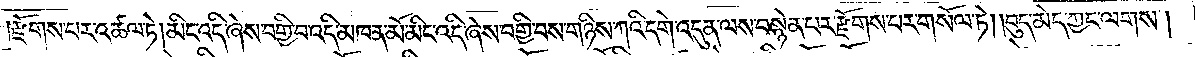རྫོགས་པར་འཚལ་ཏེ། མིང་འདི་ཞེས་བགྱི་བ་འདི་མཁན་མོ་མིང་འདི་ཞེས་བགྱི་བས་གཉིས་ཀའི་དགེ་འདུན་ལས་བསྙེན་པར་རྫོགས་པར་གསོལ་ཏེ། །བུད་མེད་ཀྱང་ལགས། །
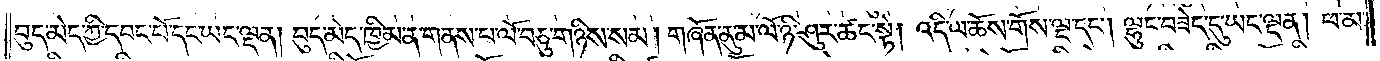བུད་མེད་ཀྱི་དབང་པོ་དང་ཡང་ལྡན། བུད་མེད་ཁྱིམ་ན་གནས་པ་ལོ་བཅུ་གཉིས་སམ། གཞོན་ནུ་མ་ལོ་ཉི་ཤུར་ཚང་སྟེ། འདི་ལ་ཆོས་གོས་ལྔ་དང༌། ལྷུང་བཟེད་དུ་ཡང་ལྡན། ཕ་མ་
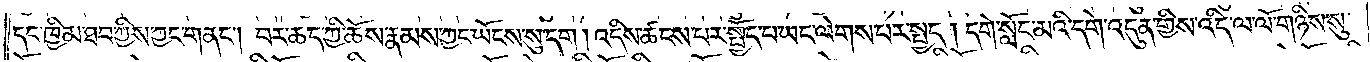དང་ཁྱིམ་ཐབ་ཀྱིས་ཀྱང་གནང༌། བར་ཆད་ཀྱི་ཆོས་རྣམས་ཀྱང་ཡོངས་སུ་དག །འདིས་ཚངས་པར་སྤྱོད་པ་ཡང་ལེགས་པར་སྤྱད། དགེ་སློང་མའི་དགེ་འདུན་གྱིས་འདི་ལ་ལོ་གཉིས་སུ་
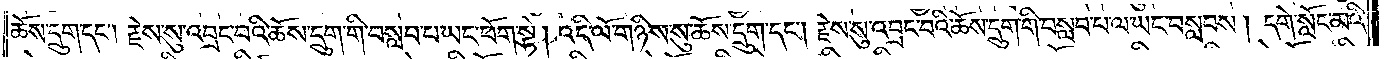ཆོས་དྲུག་དང༌། རྗེས་སུ་འབྲང་བའི་ཆོས་དྲུག་གི་བསླབ་པ་ཡང་ཕོག་སྟེ། འདི་ལོ་གཉིས་སུ་ཆོས་དྲུག་དང༌། རྗེས་སུ་འབྲང་བའི་ཆོས་དྲུག་གི་བསླབ་པ་ལ་ཡང་བསླབས། དགེ་སློང་མའི་
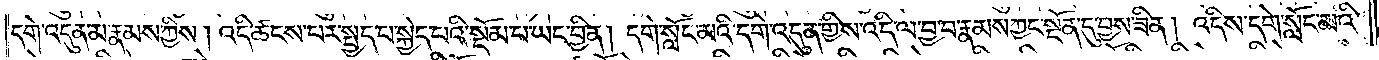དགེ་འདུན་མ་རྣམས་ཀྱིས། འདི་ཚངས་པར་སྤྱད་པ་སྐྱེད་པའི་སྡོམ་པ་ཡང་བྱིན། དགེ་སློང་མའི་དགེ་འདུན་གྱིས་འདི་ལ་བྱ་བ་རྣམས་ཀྱང་སྔོན་དུ་བྱས་ཟིན། འདིས་དགེ་སློང་མའི་
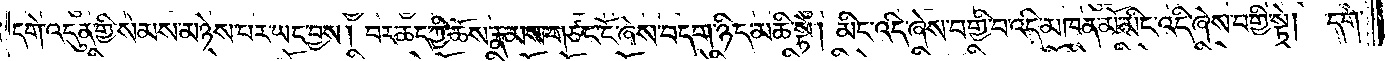དགེ་འདུན་གྱི་སེམས་མཉེས་པར་ཡང་བྱས། བར་ཆད་ཀྱི་ཆོས་རྣམས་གཙང་ངོ་ཞེས་བདག་ཉིད་མཆི་སྟེ། མིང་འདི་ཞེས་བགྱི་བ་འདི་མཁན་མོ་མིང་འདི་ཞེས་བགྱི་སྟེ། དགེ་
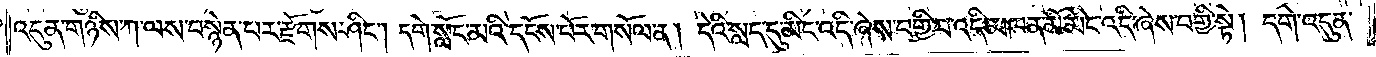འདུན་གཉིས་ཀ་ལས་བསྙེན་པར་རྫོགས་ཤིང༌། དགེ་སློང་མའི་དངོས་པོར་གསོལ་ན། དེའི་སླད་དུ་མིང་འདི་ཞེས་བགྱི་བ་འདི་མཁན་མོ་མིང་འདི་ཞེས་བགྱི་སྟེ། དགེ་འདུན་
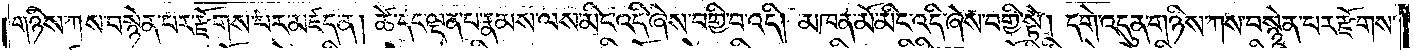གཉིས་ཀས་བསྙེན་པར་རྫོགས་པར་མཛད་ན། ཚེ་དང་ལྡན་པ་རྣམས་ལས་མིང་འདི་ཞེས་བགྱི་བ་འདི། མཁན་མོ་མིང་འདི་ཞེས་བགྱི་སྟེ། དགེ་འདུན་གཉིས་ཀས་བསྙེན་པར་རྫོགས་
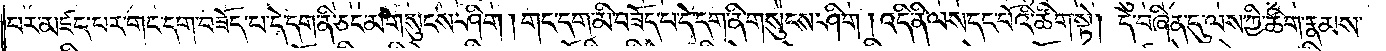པར་མཛད་པར་གང་དག་བཟོད་པ་དེ་དག་ནི་ཅང་མ་གསུངས་ཤིག །གང་དག་མི་བཟོད་པ་དེ་དག་ནི་གསུངས་ཤིག །འདི་ནི་ལས་དང་པོའི་ཚིག་སྟེ། དེ་བཞིན་དུ་ལས་ཀྱི་ཚིག་རྣམས་
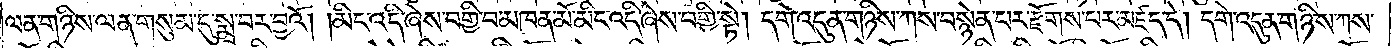ལན་གཉིས་ལན་གསུམ་དུ་སྨྲ་བར་བྱའོ། །མིང་འདི་ཞེས་བགྱི་བ་མཁན་མོ་མིང་འདི་ཞེས་བགྱི་སྟེ། དགེ་འདུན་གཉིས་ཀས་བསྙེན་པར་རྫོགས་པར་མཛད་དེ། དགེ་འདུན་གཉིས་ཀས་
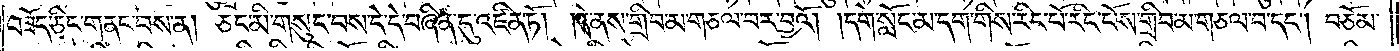བཟོད་ཅིང་གནང་བས་ན། ཅང་མི་གསུང་བས་ངེ་དེ་བཞིན་དུ་འཛིན་ཏོ། །དེ་ནས་གྲིབ་མ་གཅལ་བར་བྱའོ། །དགེ་སློང་མ་དག་གིས་རིང་པོ་རིང་པོས་གྲིབ་མ་གཅལ་བ་དང༌། བཅོམ་
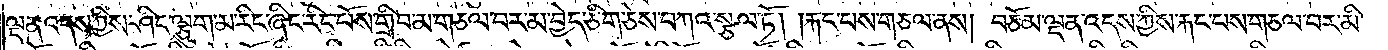ལྡན་འདས་ཀྱིས་ཤིང་ལྕུག་མ་རིང་ཞིང་རིང་པོས་གྲིབ་མ་གཅལ་བར་མ་བྱེད་ཅིག་ཅེས་བཀའ་སྩལ་ཏོ། །རྐང་པས་གཅལ་ནས། བཅོམ་ལྡན་འདས་ཀྱིས་རྐང་པས་གཅལ་བར་མི་
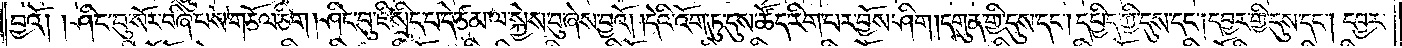བྱའོ། །ཤིང་བུ་སོར་བཞི་པས་གཅོལ་ཅིག །ཤིང་བུ་ཇི་སྲིད་པ་དེ་ཙམ་ལ་སྐྱེས་བུ་ཞེས་བྱའོ། །དེའི་འོག་ཏུ་དུས་ཚོད་རིག་པར་བྱོས་ཤིག །དགུན་གྱི་དུས་དང༌། དཔྱིད་ཀྱི་དུས་དང༌། དབྱར་གྱི་དུས་དང༌། དབྱར་
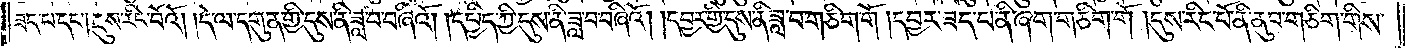ཟད་པ་དང༌། དུས་རིང་བོའོ། །དེ་ལ་དགུན་གྱི་དུས་ནི་ཟླ་བ་བཞིའོ། །དཔྱིད་ཀྱི་དུས་ནི་ཟླ་བ་བཞིའོ། །དབྱར་གྱི་དུས་ནི་ཟླ་བ་གཅིག་གོ །དབྱར་ཟད་པ་ནི་ཞག་གཅིག་གོ །དུས་རིང་པོ་ནི་ནུབ་གཅིག་གིས་
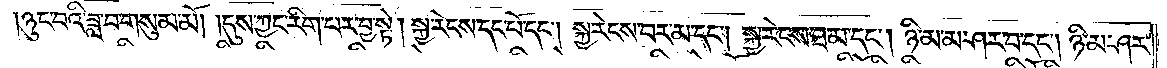ཉུང་བའི་ཟླ་བ་གསུམ་མོ། །དུས་ཀྱང་རིག་པར་བྱ་སྟེ། སྐྱ་རེངས་དང་པོ་དང༌། སྐྱ་རེངས་པར་མ་དང༌། སྐྱ་རེངས་ཐ་མ་དང༌། ཉི་མ་མ་ཤར་བ་དང༌། ཉི་མ་ཤར་
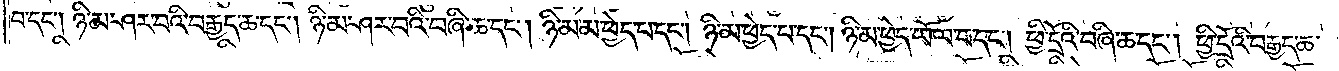བ་དང༌། ཉི་མ་ཤར་བའི་བརྒྱད་ཆ་དང༌། ཉི་མ་ཤར་བའི་བཞི་ཆ་དང༌། ཉི་མ་མ་ཕྱེད་པ་དང༌། ཉི་མ་ཕྱེད་པ་དང༌། ཉི་མ་ཕྱེད་ཡོལ་བ་དང༌། ཕྱི་དྲོའི་བཞི་ཆ་དང༌། ཕྱི་དྲོའི་བརྒྱད་ཆ་
